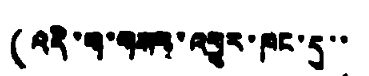(འདི་ག་གསར་འགྱུར་ཁང་དུ་་
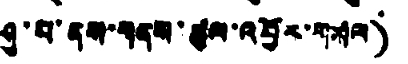ཤུ་པ་ནས་གནས་ཚུལ་འབྱོར་གསལ)
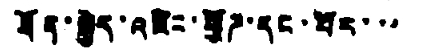ཐོན་སྐྱེད་འཛིང་ཕྱོཌ་དང་པོར་་་
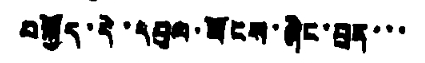བསྐྱོད་དེ་དབུལ་ཕོངས་ཞིང་བྲན་་་
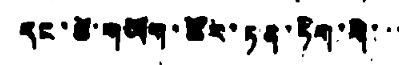དང་ཚེ་གཡོག་ཚོར་ཏན་ཏིག་གི་་་
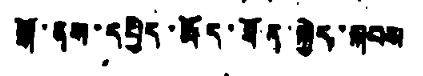སྒོ་ནས་དཔྱིད་རྨོད་ཐོན་སྐྱེད་སྐབས
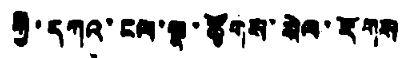ཀྱི་དཀའ་ངལ་སྣ་ཚོགས་སེལ་རོགས
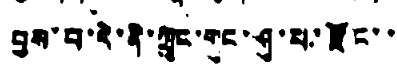བྱས་པ་དེ་ནི་ཀྲུང་གུང་ཤུ་པ་རྫོང་་
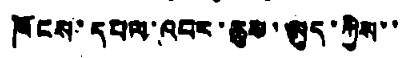ཁོངས་དཔལ་འབར་ཆུས་ཨུད་ཀྱིས་་
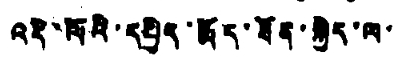འདི་ལོའི་དཔྱིད་རྨོད་ཐོན་སྐྱེད་ལ་
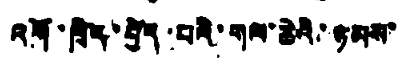འགོ་ཁྲིད་བྱེད་པའི་གལ་ཆེའི་ཉམས་
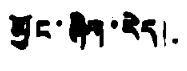མྱོང་ཞིག་རེད།
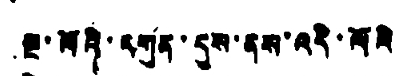སྔ་ལོའི་དགུན་དུས་ནས་འདི་ལོའི
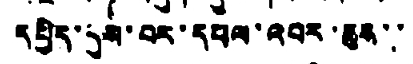དཔྱིད་དུས་བར་དཔལ་འབར་ཆུས་་
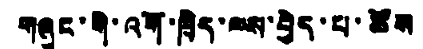གཞུང་གི་འགོ་ཁྲིད་ལས་བྱེད་པ་ཚོས
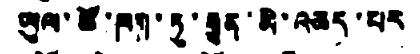ཡུལ་ཚོ་ཁག་ཏུ་རྒྱུན་མི་འཆད་པར
